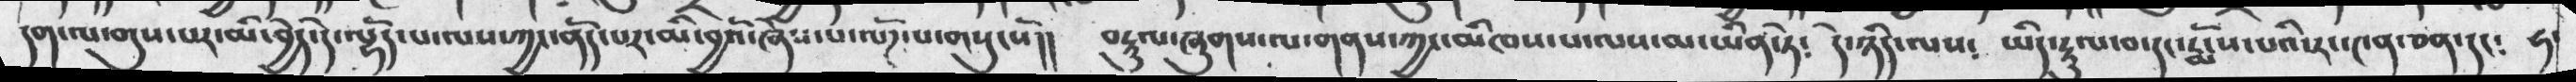དག་ལ་གུས་པར་མི་བྱེད་དེ་ལྷོད་པ་ལས་ཀྱང་ནོད་པར་མི་བྱའོ་ཞེས་པ་ལོཌ་པ་གསུངསོ།།   བརྟུལ་ཞུགས་ལ་གནས་ཀྱང་མིཁས་པ་ལས་མ་ཡིན་ཏེ༴    དེ་ཉིད་ལས༴   ཡིད་རྡུལ་བ་དང་རྨོས་པའི་རང་༤ན་ཅན་དང༴  ཧ་
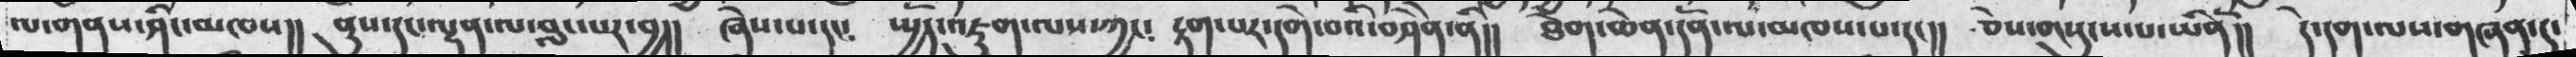ལ་གནས་ཤིང་མཁས།། ནུས་དང་ལྡན་ལ་བླང་པར་བྱ།། ཞེས་པ་དང༴ སྤྱོད་འཇུག་ལས་ཀྱང༴ རྟག་པར་དགེ་བའི་བཤེེན་ནི།། ཐེག་ཆེན་དོན་ལ་མཁས་པ་དང།། ཅེས་གསུངས་པ་ཡིནོ།། དེ་དག་ལས་གཞན་དུ་
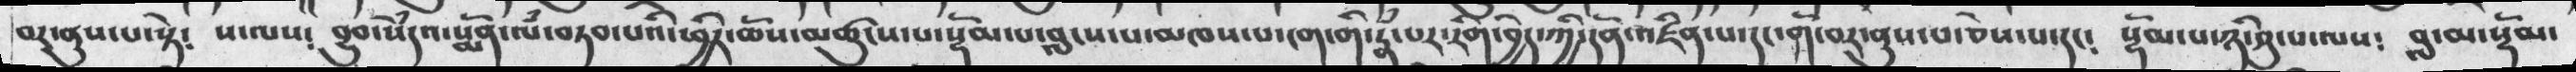བར་ནུས་པ་སྟེ༴ ས་ལས༴ བྱུབ་སེཾདའ་སྨོན་ལཾ་བཏབ་པའི་ཕྱིར་ཆོས་མཚུངས་པ་སྡོམ་པ་བླངས་པ་མཁས་པ་ངག་གི་རྣཾ་པར་རིག་བྱེད་ཀྱི་དོན་འཛིན་པ་དང་གོ་བར་ནུས་པ་ཅེས་པ་དང༴  སྡོམ་པ་ཉི་ཤུ་པ་ལས༴  བླ་མ་སྡོམ་
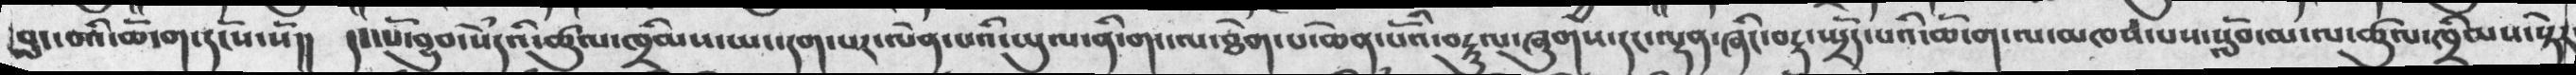བླང་བའི་ཆོ་ག་དངོས་སོ།། དང་པོ་བྱུབ་སེཾདའི་ཚུལ་ཁྲིམས་ཡང་དག་པར་ལེན་པའི་ཡུལ་ནི་གང་ལ་ཐེག་པ་ཆེན་པོའི་བརྟུལ་ཞུགས་དང་ལྡན་ཞིང་བརྡ་སྤྲོད་པའི་ཆོ་ག་ལ་མཁས་པས་སློབ་མ་ལ་ཚུལ་ཁྲིམས་སྟེར་
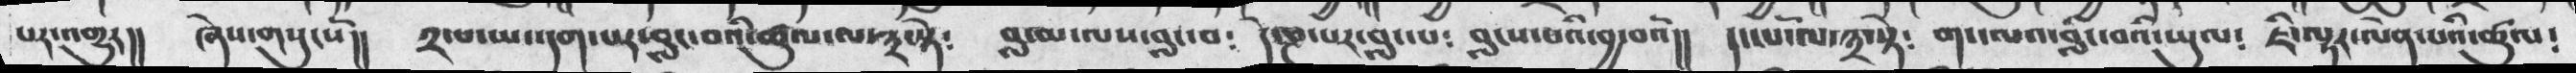པར་འགྱུར།།   ཞེས་གསུངསོ།།   ༢་པ་ཡང་དག་པར་བླང་བའི་ཚུལ་ལ་༣་སྟེ༴  བླ་མ་ལས་བླང་བ༴   དེ་ཎ་པར་བླང་པ༴   བླངས་པའི་བྱ་བའོ།།  དང་པོ་ལ་༣་སྟེ༴   གང་ལས་བླང་བའི་ཡུལ༴  ་ཇི་ལྟར་ལེན་པའི་ཚུལ༴
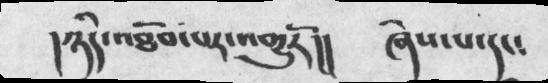།ཉིད་འཐོབ་པར་འགྱུརོ།།    ཞེས་པ་དང༴
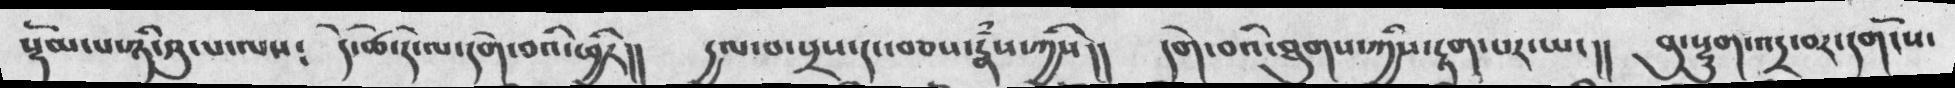སྡོམ་པ་ཉི་ཤུ་ལས༴    དེ་ཚེ་དེ་ལ་དགེ་བའི་ཕྱིར།།   དྱལ་བ་སྲས་དང་བཅས་རྣསྃ་ཀྱིས།།   དགེ་བའི་ཐུགས་ཀྱིས་རྟག་པར་ཡང།།   བུ་སྡུག་འདྲ་བར་དགོངས་
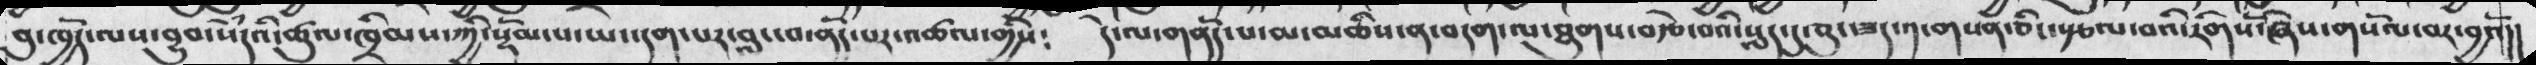བུ་ཁྱོད་ལས་བྱུབ་སེཾདའི་ཚུལ་ཁྲིམས་ཀྱི་སྡོམ་པ་ཡང་དག་པར་བླང་བ་ནོད་པར་འཚལ་གྱིས༴   དེ་ལ་གནོད་པ་མ་མཆིས་ན་བདག་ལ་ཐུགས་བརྩེ་བའི་སླད་དུ་ཅུང་ཟད་༡་གསན་ཅིང་རྩལ་བའི་རིགསོ་ཞེས་གསོལ་བར་བྱའོ།།
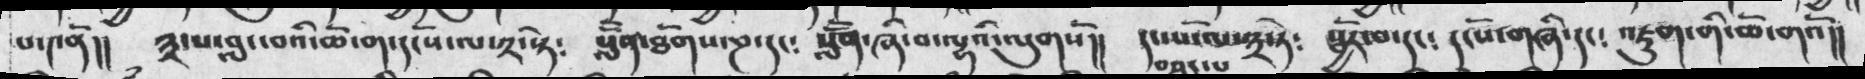པ་༤ནོ།།   ༣་པ་བླང་བའི་ཆོ་ག་དང་པོ་ལ་༢་སྟེ༴   སློོན་ཐོགས་ཎ་དང༴   སློོན་ཞི་བ་ལྷའི་ལུགསོ།།།  དང་པོ་ལ་༣་ཏེ༴   སྦྱོར་བ་དང༴  དངོས་གཞི་དང༴  འཇུག་གི་ཆོ་གའོ།།
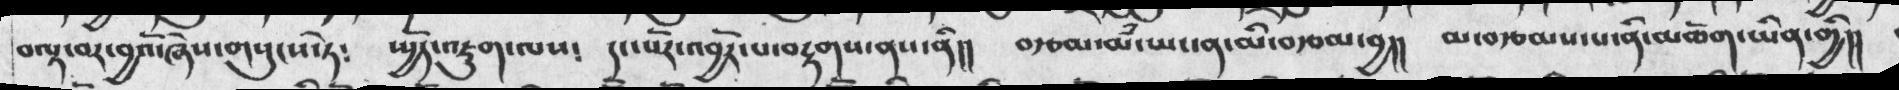བལྟ་བར་བྱའོ་ཞེས་གསུངས་ཏེ༴    ཡྱོད་འཇུག་ལས༴   དང་པོར་འབྱོར་པ་བརྟགས་ནས་ནི།།   བརྩམ་མཾ་ཡང་ན་མི་བརྩམ་བྱ།།   མ་བརྩམས་པ་ནི་མཆོག་ཡིན་གྱི།།
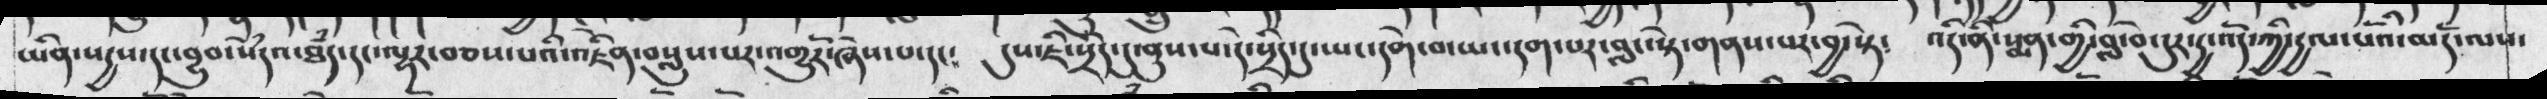ཡིན་སདྱས་དང་བྱུབ་སེདྃའ་ཐཾད་དང་ལྷར་བཅས་པའི་འཇེིན་བསླུ་པར་འགྱུརོ་ཞེས་པ་དང༴   དུས་ཇི་སྲིད་དུ་ནུས་པ་དེ་སྲིད་དུ་ཡང་དགེ་བ་ཡང་དག་པར་བླང་སྟེ་གནས་པར་བྱ་སྟེ༴ འདི་ནི་སྨན་གྱི་བློ་བེ་དུར་དྱ་འོད་ཀྱི་དྱལ་པོའི་མདོ་ལས་
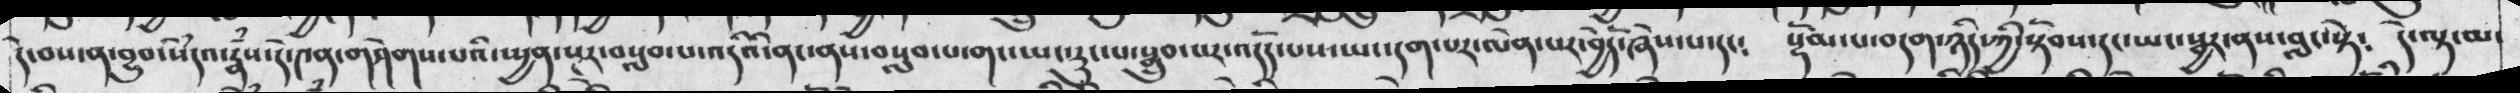དེ་བས་ན་བྱུབ་སེཾདའ་རྣཾས་དེ་༤ན་གཤེགས་པའི་སྤྱན་སྔར་བསླབ་པ་འདིའི་ནང་ནས་བསླབ་པ་གང་ཡང་རུང་པ་སྒྲུབ་པར་འདོད་པས་ཡང་དག་པར་ལེན་པར་བྱེདོ་ཞེས་པ་དང༴  སྡོམ་པ་བདག་ཉིད་ཀྱི་སྟོབས་དང་ཡང་སྦྱར་ནས་བླང་སྟེ༴ དེ་ལྟ་མ་
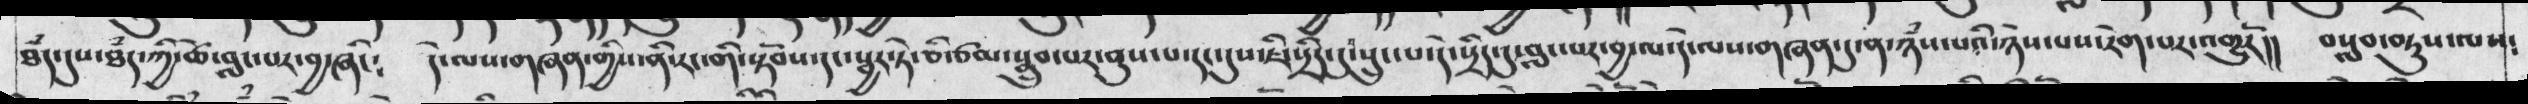ཐཾད་དུས་ཐཾད་ཀྱི་ཚེ་བླང་པར་བྱ་ཞིང༴  དེ་ལས་གཞན་གྱིས་ནི་རང་གི་སྟོབས་དང་སྦྱར་ཏེ་ཅི་ཙམ་སྒྲུབ་པར་ནུས་པ་དང་དུས་ཇི་སྲིད་དུ་བླང་པར་བྱ་ལ་དེ་ལས་གཞན་དུ་ན་ཉཾས་པའི་ཉེས་པས་རེག་པར་འགྱུརོ།།  བསླབ་བཏུས་ལས༴
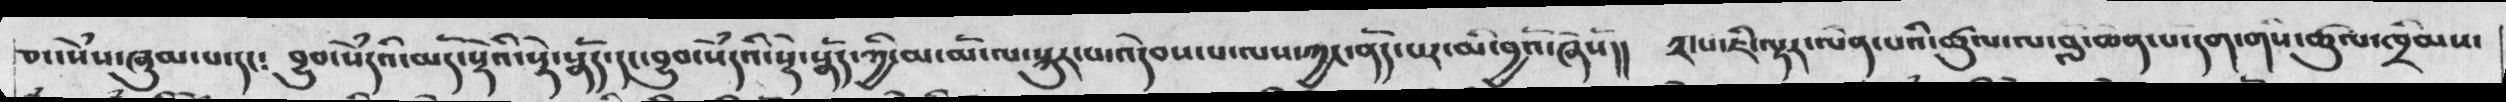ཅང་སེཾས་ཞུམ་པ་དང༴  བྱུབ་སེཾདའི་མདོ་སྡེ་སྣོད་དང་བྱུབ་སེཾདའི་སྡེ་སྣོད་ཀྱི་མ་མོ་ལ་སྐུར་པ་འདེབས་པ་ལས་ཀྱང་ནོད་པར་མི་བྱའོ་ཞེསོ།།  ༢་པ་ཇི་ལྟར་ལེན་པའི་ཚུལ་ལ་བླ་ཆེན་པ་དག་གིས་ཚུལ་ཁྲིམས་
